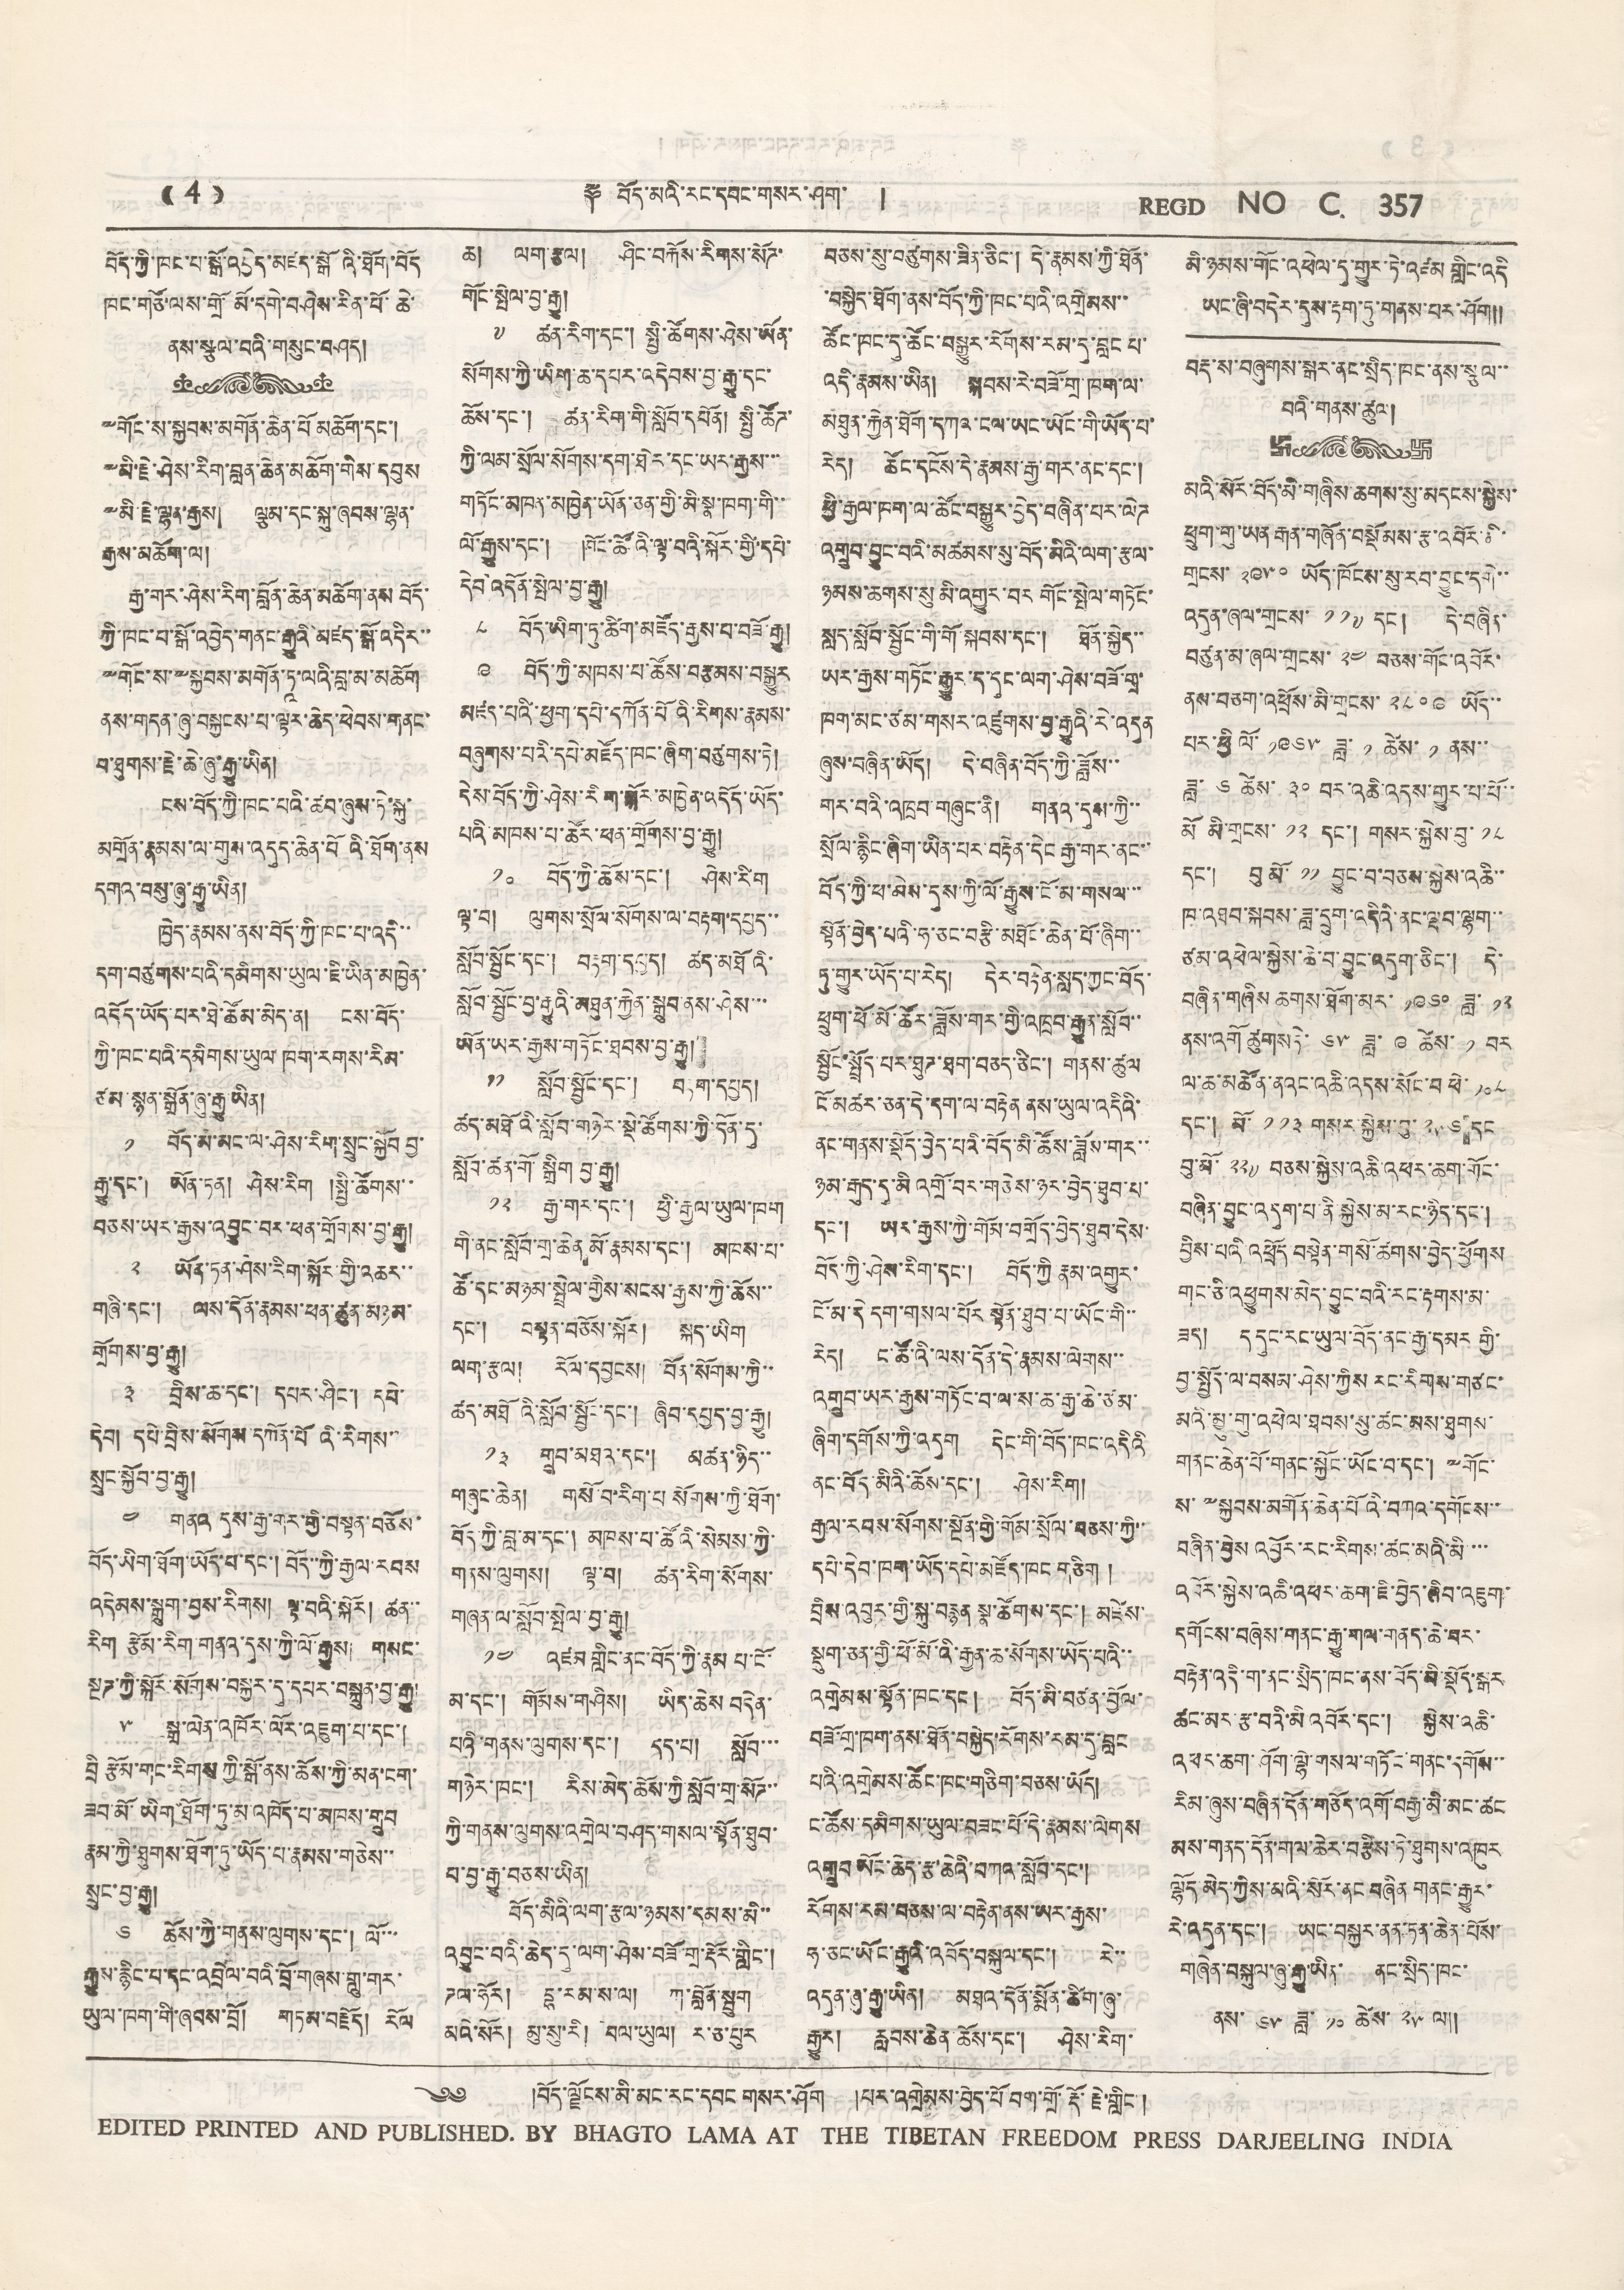(( 4 )) ༈ བོད་མིའི་རང་དབང་གསར་ཤོག་ ། REGD NO C. 357
(( 4 )) ༈ བོད་མིའི་རང་དབང་གསར་ཤོག་ ། REGD NO C. 357
བོད་ཀྱི་ཁང་པ་སྒོ་འབྱེད་མཛད་སྒོའི་ཐོག་བོད
ཁང་གཙོ་ལས་གྲོ་མོ་དགེ་བཤེས་རིན་པོ་ཆེ་
ནས་སྩལ་བའི་གསུང་བཤད།
༸གོང་ས་སྐྱབས་མགོན་ཆེན་པོ མཆོག་དང་།
༸མི་རྗེ་ཤེས་རིག་བླན་ཆེན་མཆོན་གིས་དབུས
༸མི་རྗེ་ལྷན་རྒྱས། ལྕམ་དང་སྐུ་ཞབས་ལྷན་
རྒྱས་མཆོག་ལ།
རྒྱ་གར་ཤེས་རིག་བློན་ཆེན་མཆོག་ནས བོད་
ཀྱི་ཁང་པ་སྒོ་འབྱེད་གནང་རྒྱུའི་མཛད་སྒོ་འདིར་་
༸གོང་ས་༸སྐྱབས་མགོན་ཏྰ་ལའི་བླ་མ་མཆོག
ནས་གདན་ཞུ་བསྐྱངས་པ་ལྟར་ཆེད་ཕེབས་གནང་
ན་ཐུགས་རྗེ་ཆེ་ཞུ་རྒྱུ་ཡིན།
ངས་བོད་ཀྱི་ཁང་པའི་ཚབ་ཞུས་ཏེ་སྐུ་
མགྲོན་རྣམས་ལ་གུས་འདུད་ཆེན་པོའི་ཐོག་ནས
དགའ་བསུ་ཞུ་རྒྱུ་ཡིན།
ཁྱེད་རྣམས་ནས་བོད་ཀྱི་ཁང་པ་འདི་་
དག་བཙུགས་པའི་དམིགས་ཡུལ་ཇི་ཡིན་མཁྱེན་
འདོད་ཡོད་པར་ཐེ་ཚོམ་མེད་ན། ངས་བོད་
ཀྱི་ཁང་པའི་དམིགས་ཡུལ་ཁག་རགས་རིམ་
ཙམ་སྙན་སྒྲོན་ཞུ་རྒྱུ་ཡིན།
༡ བོད་མི་མང་ལ་ཤེས་རིག་སྲུང་སྐྱོབ བྱ་
རྒྱུ་དང་། ཡོན་ཏན། ཤེས་རིག །སྤྱི་ཚོགས་་
བཅས་ཡར་རྒྱས་འབྱུང་བར་ཕན་གྲོགས་བྱ་རྒྱུ།
༢ ཡོན་ཏན་ཤེས་རིག་སྐོར་གྱི་འཆར་་
གཞི་དང་། ལས་དོན་རྣམས་ཕན་ཚུན་མཉམ་
གྲོགས་བྱ་རྒྱུ།
༣ བྲིས་ཆ་དང་། དཔར་ཤིང་། དཔེ་
དེབ། དཔེ་བྲིས་སོགས་དཀོན་པོའི་རིགས་་
སྲུང་སྐྱོབ་བྱ་རྒྱུ།
༤ གནའ དུས་རྒྱ་གར་གྱི་བསྟན་བཅོས་
བོད་ཡིག་ཐོག་ཡོད་པ་དང་། བོད་་ཀྱི་རྒྱལ་རབས
འདེམས་སྒྲུག་བྱས་རིགས། ལྟ་བའི་སྐོར། ཚན་་
རིག རྩོམ་རིག་གནའ་དུས་ཀྱི་ལོ་རྒྱུས། གསང་
སྔཌ་ཀྱི་སྐོར་སོགས་བསྐྱར་དུ་དཔར་བསྐྲུན་བྱ་རྒྱུ།
༥ སྒྲ་ལེན་འཁོར་ལོར་འཇུག་པ་དང་།
བྲི རྩོམ་གང་རིགས་ཀྱི་སྒོ་ནས་ཆོས་ཀྱི་མན་ངག་
ཟབ་མོ་ཡིག་ཐོག་ཏུ་མ་འཁོད་པ་མཁས་གྲུབ
རྣམ་ཀྱི་ཐུགས་ཐོག་ཏུ་ཡོད་པ་རྣམས་གཅེས་་
སྲུང་བྱ་རྒྱུ།
༦ ཆོས་ཀྱི་གནས་ལུགས་དང་། ལོ་་་
རྒྱུས་རྙིང་པ་དང་འབྲེལ་བའི་བྲོ་གཞས་གླུ་གར་
ཡུལ་ཁག་གི་ཞབས་བྲོ། གཏམ་བརྗོད། རོལ
ཆ། ལྒ་རྩལ། ཤིང་བརྐོས་རིགས་སོཌ་
གོང་སྤེལ་བྱ་རྒྱུ།
༧ ཚན་རིག་དང་། སྤྱི་ཚོགས་ཤེས་ཡོན་
སོགས་ཀྱི་ཡིག་ཆ་དཔར་འདེབས་བྱ་རྒྱུ་དང་
ཆོས་དང་། ཚན་རིག་གི་སློབ་དཔོན། སྤྱི་ཚོཌ་
ཀྱི་ལམ་སྲོལ་སོགས་དག་ཐེར་དང་ཡར་རྒྱས་་་
གཏོང་མཁན་མཁྱེན་ཡོན་ཅན་གྱི་མི་སྣ་ཁག་གི་་
ལོ་རྒྱུས་དང་། ཁོང་ཚོའི་ལྟ་བའི་སྐོར་གྱི་དཔེ་
དེབ་འདོན་སྤེལ་བྱ་རྒྱུ།
༨ བོད་ཡིག་ཏུ་ཚིག་མཛོད་རྒྱས་པ་བཟོ་རྒྱུ།
༩ བོད་ཀྱི་མཁས་པ་ཚོས་བརྩམས་བསྒྱུར
མཛད་པའི་ཕྱག་དཔེ་དཀོན་པོའི་རིགས་རྣམས་
བཞུགས་པའི་དཔེ་མཛོད་ཁང་ཞིག་བཙུགས་ཏེ།
དེས་བོད་ཀྱི་ཤེས་རིག་སྐོར་མཁྱེན་འདོད་ཡོད་
པའི་མཁས་པ་ཚོར་ཕན་གྲོགས་བྱ་རྒྱུ།
༡༠ བོད་ཀྱི་ཆོས་དང་། ཤེས་རིག
ལྟ་བ། ལུགས་སྲོལ་སོགས་ལ་བརྟག་དཔྱད་་
སློབ་སྦྱོང་དང་། བརྟག་དཔྱད། ཚད་མཐོའི་
སློབ་སྦྱོང་བྱ་རྒྱུའི་མཐུན་རྐྱེན་སྒྲུབ་ནས་ཤེས་་་
ཡོན་ཡར་རྒྱས་གཏོང་ཐབས་བྱ་རྒྱུ།
༡༡ སློབ་སྦྱོང་དང་། བརྟག་དཔྱད།
ཚད་མཐོའི་སློབ་གཉེན་སྡེ་ཚོགས་ཀྱི་དོན་དུ་
སློབ་ཚན་གོ་སྒྲིག བྱ་རྒྱུ།
༡༢ རྒྱ་གར་དང་། ཕྱི་རྒྱལ་ཡུལ་ཁག
གི་ནང་སློབ་གྲ་ཆེན་མོ་རྣམས་དང་། མཁས་པ་
ཚོ་དང་མཉམ་སྤྲེལ་གྱིས་སངས་རྒྱས་ཀྱི་ཆོས་་
དང་། བསྟན་བཅོས་སྐོར། སྐད་ཡིག
ལག་རྩལ། རོལ་དབྱངས། བོན་སོགས་ཀྱི་་
ཚད་མཐོའི་སློབ་སྦྱོང་དང་། ཞིབ་དཔྱད་བྱ་རྒྱུ།
༡༣ གྲུབ་མཐའ་དང་། མཚན་ཉིད་་
གཞུང་ཆེན། གསོ་བ་རིག་པ སོགས་ཀྱི་ཐོག་
བོད་ཀྱི་བླ་མ་དང་། མཁས་པ་ཚོའི་སེམས་ཀྱི་
གནས་ལུགས། ལྟ་བ། ཚན་རིག་སོགས་
གཞན་ལ་སློབ་སྤེལ་བྱ་རྒྱུ།
༡༤ འཛམ་གླིང་ནང་བོད་ཀྱི་རྣམ པ་ངོ་
མ་དང་། གོམས་གཤིས། ཡིད་ཆེས་བདེན་
པའི་གནས་ལུགས་དང་། དད་པ། སློབ་་་
གཉེར་ཁང་། རིས་མེད་ཆོས་ཀྱི་སློབ་གྲ་སོཌ་་
ཀྱི་གནས་ལུགས་འགྲེལ་བཤད་གསལ་སྟོན་ཐུབ་
པ་བྱ་རྒྱུ་བཅས་ཡིན།
བོད་མིའི་ལག་རྩལ་ཉམས་དམས་མི་་
འབྱུང་བའི་ཆེད་དུ་ལག་ཤེས་བཟོ་གྲ་རྡོར་གླིང་།
ཌལ་ཧོར། དྷ་རམ་ས་ལ། ཀ་བློན་སྦུག
མའི་སོར། མུ་སུ་རི། བལ་ཡུལ། ར་ཅ་པུར
བཅས་སུ་བཙུགས་ཟིན་ཅིང་། དེ་རྣམས་ཀྱི་ཐིན་
་བསྐྱེད་ཐོག་ནས་བོད་ཀྱི་ཁང་པའི་འགྲེམས་་
ཚོང་ཁང་དུ་ཚོང་བསྒྱུར་རོགས་རམ་དུ་བླང པ་
འདི་རྣམས་ཡིན། སྐབས་རེ་བཟོ་གྲ་ཁག་ལ་
མཐུན་རྐྱེན་ཐོག་དཀའ་ངལ་ཡང་ཡོང་གི་ཡོད་པ་
རེད། ཚོང་དངོས་དེ་རྣམས་རྒྱ་གར་ནང་དང་།
ཕྱི་རྒྱལ་ཁག་ལ་ཚོང་བསྒྱུར་བྱེད་བཞིན་པར་ལེཌ
འགྲུབ་བྱུང་བའི་མཚམས་སུ་བོད་མིའི་ལག་རྩལ་
ཉམས་ཆགས་སུ མི་འགྱུར་བར གོང་སྤེལ་གཏོང་
སླད་སློབ་སྦྱོང་གི་གོ་སྐབས་དང་། ཐོན་སྐྱེད་་
ཡར་རྒྱས་གཏོང་རྒྱུར་ད་དུང་ལག་ཤེས་བཟོ་གྲྭ་
ཁག་མང་ཙམ་གསར་འཛུགས་བྱ་རྒྱུའི་རི་འདུན
ཞུས་བཞིན་ཡོད། དེ་བཞིན་བོད་ཀྱི་ཟློས་་
གར་བའི་འཁྲབ་གཞུང་ནི། གནའ་དུས་ཀྱི་་
སྲོལ་རྙིང་ཞིག་ཡིན་པར་བརྟེན་དེང་རྒྱ་གར་ནང་་
བོད་ཀྱི་ཕ་མེས་དུས་ཀྱི་ལོ་རྒྱུས་ངོ་མ་གསལ་་་
སྟོན་བྱེད་པའི་ཧ་ཅང་བརྩི་མཐོང་ཆེན་པོ་ཞིག་་
ཏུ་གྱུར་ཡོད་པ་རེད། དེར་བརྟེན་སླད་ཀྱང་བོད་
ཕྲུག་ཕོ་མོ་ཚོར་ཟློས་གར་གྱི་འཁྲབ་རྒྱུན་སློབ་་
སྦྱོང་སྤྲོད་པར་ཐུཌ་ཐག་བཅད་ཅིང་། གནས་ཚུལ
ངོ་མཚར་ཅན་དེ་དག་ལ་བརྟན ནས་ཡུལ་འདིའི་
ནང་གནས་སྡོད་བྱེད་པའི་བོད་མི་ཚོས་ཟློས་གར་་
ཉམ་རྒུད་དུ་མི འགྲོ་བར་གཅེས་ཉར་བྱེད་ཐུབ་པ་
དང་། ཡར་རྒྱས་ཀྱི་གོམ་བགྲོད་བྱེད་ཐུབ་དེས་
བོད་ཀྱི་ཤེས་རིག་དང་། བོད་ཀྱི རྣམ་འགྱུར་
ངོ་མ་དེ་དག་གསལ་པོར སྟོན་ཐུབ་པ་ཡོང་གི་་
རེད། ང་ཚོའི་ལས་དོན་དེ་རྣམས་ལེགས་་
འགྲུབ་ཡར་རྒྱས་གཏོང་བ་ལ་ས་ཆ་རྒྱ་ཆེ་ཙམ་
ཞིག་དགོས་ཀྱི་འདུག དེང་གི་བོད་ཁང་འདིའི
ནང་བོད་མིའི་ཆོས་དང་། ཤེས་རིག།
རྒྱལ་རབས་སོགས་སྔོན་གྱི་གོམ་སྲོལ་བཅས་ཀྱི་་
དཔེ་དེབ་ཁག་ཡོད་དཔེ་མཛོད་ཁང གཅིག།
བྲིས་འབུར་གྱི་སྐུ་བརྙན སྣ་ཚོགས་དང་། མཛེས་
སྡུག་ཅན་གྱི་ཕོ་མོ་འི་རྒྱན་ཆ་སོགས་ཡོད་པའི་་
འགྲེམས་སྟོན་ཁང་དང ། བོད་མི་བཙན་བྱོལ་
བཟོ་གྲ་ཁག་ནས་ཐོན་བསྐྱེད་རོགས་རམ་དུ་བླང
པའི་འགྲེམས་ཚོང་ཁང་གཅིག་བཅས་ཡོད།
ང་ཚོས་དམིགས་ཡུལ་བཟང་པོ་དེ་རྣམས་ལེགས
འགྲུབ ཡོང་ཆེད་རྩ་ཆེའི་བཀའ་སློབ་དང་།
རོགས་རམ་བཅས་ལ་བརྟེན་ནས་ཡར་རྒྱས་
ཧ་ཅང་ཡོང་རྒྱུའི་འབོད་བསྐུལ་དང་། རེ་་
འདུན་ཞུ་རྒྱུ་ཡིན། མཐའ་དོན་སྨོས་ཚིག་ཞུ་
རྒྱུར། རླབས་ཆེན་ཆོས་དང་། ཤེས་རིག་
མི་ཉགས་གོང་འཕེལ་དུ་གྱུར་ཏེ་འཛམ གླིང་འདི
ཡང་ཞི་བདེར་དུས་རྟག་ཏུ་གནས་པར་ཤོག།།
བརྡ་ས་བཞུགས་སྒར་ནང་སྲིད་ཁང་ནས་སྩལ་་
པའི་གནས་ཚུལ།
མའི་སོར་བོད་མི་གཞིས་ཆགས་སུ་མདངས་སྐྱེས་
ཕྱུག་གུ་ཡན རྒན་གཞོན་བསྡོམས་རྩ་འབོར་མི་
གྲངས་ ༡༩༥༠ ཡོད་ཁོངས་སུ་རབ་བྱུང་དགེ་་
འདུན་ཞལ་གྲངས་ ༡༡༧ དང་། དེ་བཞིན་
བཙུན་མ་ཞལ་གྲངས་ ༢༤ བཅས་གོང་འབོར་
ནས་བཅག་འཕྲོས་མི་གྲངས་ ༢༨༠༩ ཡོད་་
པར་ཕྱི ལོ་ ༡༩༦༥ ཟླ་ ༡ ཚེས་ ༡ ནས་་
ཟླ་ ༦ ཚེས་ ༣༠ བར་འཆི་འདས་གྱུར་པ་པོ་་
མོ མི་གྲངས་ ༡༢ དང་། གསར་སྐྱེས་བུ་ ༡༨
དང་། བུ མོ་ ༡༡ བྱུང་བ་བཅས་སྐྱེས་འཆི་་
ཁ་འཐབ་སྐབས་ཟླ་དྲུག་འདིའི་ནང་ལྡབ་ལྷག་་
ཙམ་འཕེལ་སྐྱེས་ཆེ་བ་བྱུང་འདུག་ཅིང་། དེ་
བཞིན་གཞིས ཆགས་ཐོག་མར་ ༡༩༦༠ ཟླ་ ༡༢
ནས་འགོ ཚུགས ཏེ་ ༦༥ ཟླ་ ༩ ཚེས་ ༡ བར
ལ་ཆ་མཚོན་ནའང་འཆི་འདས་སོང་བ ཕེ་ ༡༠༨
དང་། མོ ༡༡༣ གསར་སྐྱེས་བུ་ ༢༥༦ དང
བུ་མོ་ ༢༢༧ བཅས་སྐྱེས་འཆི་འཕར་ཆག་གོང་
བཞིན་བྱུང་འདུག་པ་ནི་སྐྱེས་མ་རང་ཉིད་དང་།
བྱིས་པའི་འཕྲོད་བསྟེན་གསོ་ཚགས་བྱེད་ཕྱོགས
གང་ཅི་འཕྱུགས་མེད་བྱུང་བའི་རང་རྟགས་མ་
ཟད། ད དུང་རང་ཡུལ་བོད་ནང་རྒྱ་དམར གྱི་
བྱ་སྤྱོད་ལ་བསམ་ཤེས་ཀྱིས རང་རིགས་གཙང་
མའི་མྱུ་གུ་འཕེལ་ཐབས་སུ་ཚང་མས་ཐུགས་
གནང་ཆེན་པོ་གནང་སྐྱོང་ཡོང་བ་དང་། ༸གོང་
ས་༸སྐྱབས་མགོན་ཆེན་པོའི་བཀའ་དགོངས་་
བཞིན་བྱེས འབྱོར་རང་རིགས་ཚང་མའི་མི་་་་
འབོར་སྐྱེས་འཆི་འཕར་ཆག་ཇི་བྱེད་ཞིབ་འཇུག་
དགོངས་བཞེས་གནང་རྒྱུ་གལ་གནད་ཆེ་བར་
བརྟེན་འདི་ག་ནང་སྲིད་ཁང་ནས་བོད་མི་སྡོད་སྒར
ཚང་མར་རྩ་བའི་མི འབོར་དང་། སྐྱེས་འཆི་
འཕར་ཆག་ཤོག་ལྷེ་གསལ་གཏོང་གནང་དགོས་་
རིམ་ཞུས་བཞིན་དོན་གཅོད་འགོ་བརྒྱ་མི་མང་ཚང
མས་གནད་དོན་གལ་ཆེར་བརྩིས་ཏེ་ཐུགས་འཁུར
ལྷོད་མེད་ཀྱིས་མའི་སོར་ནང་བཞིན གནང་རྒྱུར་
རེ་འདུན་དང་། ཡང་བསྐྱར་ནན་ཏན་ཆེན་པོས་
གཞེན་བསྐུལ་ཞུ་རྒྱུ་ཡིན། ནང་སྲིད་ཁང་
ནས་ ༦༥ ཟླ་ ༡༠ ཚེས་ ༢༥ ལ།།
༄༅ །བོད་ལྗོངས་མི་མང་རང་དབང གསར་ཤོག །པར་འགྲེམས་བྱེད་པོ བག་གྲོ་རྡོ་གླིང་།
EDITED PRINTED AND PUBLISHED BY BHAGTO LAMA AT THE TIBETAN FREEDOM PRESS DARJEELING INDIA
